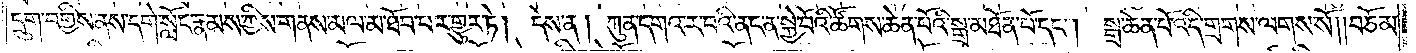དྲུག་བགྱིས་ནས་དགེ་སློང་རྣམས་ཀྱིས་གནས་མལ་མ་ཐོབ་པར་གྱུར་ཏེ། དེས་ན། ཀུན་དགའ་ར་བའི་ནང་ན་སྐྱེ་བོའི་ཚོགས་ཆེན་པོའི་སྒྲ་མཐོན་པོ་དང༌། སྒྲ་ཆེན་པོ་འདི་གྲགས་ལགས་སོ། །བཅོམ་
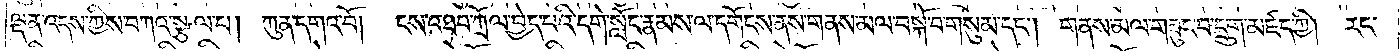ལྡན་འདས་ཀྱིས་བཀའ་སྩལ་པ། ཀུན་དགའ་བོ། །ངས་འཐབ་ཀྲོལ་བྱེད་པའི་དགེ་སློང་རྣམས་ལ་དགོངས་ནས་གནས་མལ་བསྐོ་བ་གསུམ་དང༌། གནས་མལ་གཟུང་བ་དྲུག་མཛད་ཀྱི། རང་
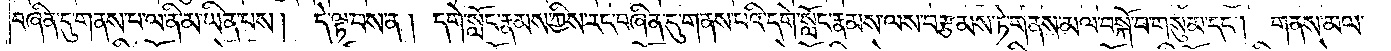བཞིན་དུ་གནས་པ་ལ་ནི་མ་ཡིན་པས། དེ་ལྟ་བས་ན། དགེ་སློང་རྣམས་ཀྱིས་རང་བཞིན་དུ་གནས་པའི་དགེ་སློང་རྣམས་ལས་བརྩམས་ཏེ་གནས་མལ་བསྐོ་བ་གསུམ་དང༌། གནས་མལ་
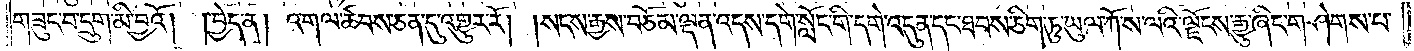གཟུང་བ་དྲུག་མི་བྱའོ། །བྱེད་ན། འགལ་ཚབས་ཅན་དུ་འགྱུར་རོ། །སངས་རྒྱས་བཅོམ་ལྡན་འདས་དགེ་སློང་གི་དགེ་འདུན་དང་ཐབས་ཅིག་ཏུ་ཡུལ་ཀོ་ས་ལའི་ལྗོངས་རྒྱུ་ཞིང་གཤེགས་པ་
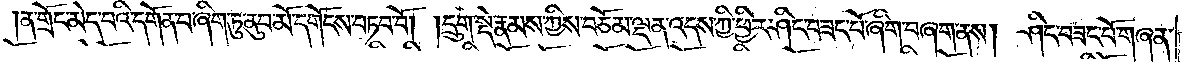ན་གྲོང་མེད་པའི་དགོན་པ་ཞིག་ཏུ་ནུབ་མོ་དགོངས་བཏབ་བོ། །དྲུག་སྡེ་རྣམས་ཀྱིས་བཅོམ་ལྡན་འདས་ཀྱི་ཕྱིར་ཤིང་བཟང་པོ་ཞིག་བཞག་ནས། ཤིང་བཟང་པོ་གཞན་
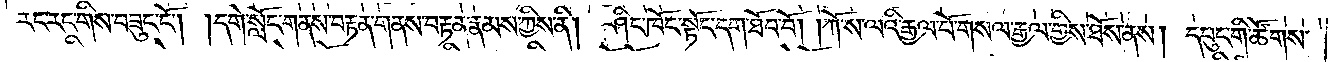རང་རང་གིས་བཟུང་ངོ༌། །དགེ་སློང་གནས་བརྟན་གནས་བརྟན་རྣམས་ཀྱིས་ནི། ཤིང་ཁོང་སྟོང་དག་ཐོབ་བོ། །ཀོ་ས་ལའི་རྒྱལ་པོ་གསལ་རྒྱལ་གྱིས་ཐོས་ནས། དཔུང་གི་ཚོགས་
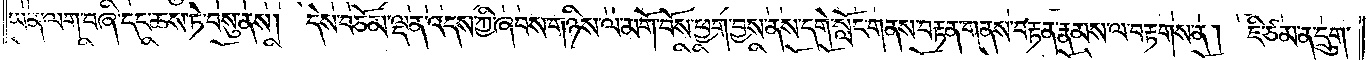ཡན་ལག་བཞི་དང་ཆས་ཏེ་བསུ་ནས། དེས་བཅོམ་ལྡན་འདས་ཀྱི་ཞབས་གཉིས་ལ་མགོ་བོས་ཕྱག་བྱས་ནས་དགེ་སློང་གནས་བརྟན་གནས་བརྟན་རྣམས་ལ་བརྟགས་ན། ཇི་ཙམ་ན་དྲུག་
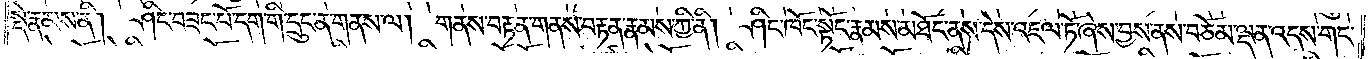སྡེ་རྣམས་ནི། ཤིང་བཟང་པོ་དག་གི་དྲུང་ན་གནས་ལ། གནས་བརྟན་གནས་བརྟན་རྣམས་ཀྱི་ནི། ཤིང་ཁོང་སྟོང་རྣམས་མཐོང་ནས་དེས་འཇལ་ཏོ་ཞེས་བྱས་ནས་བཅོམ་ལྡན་འདས་གང་
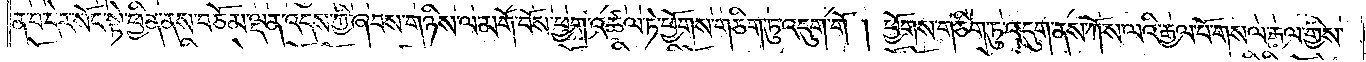ན་བ་དེར་སོང་སྟེ་ཕྱིན་ནས་བཅོམ་ལྡན་འདས་ཀྱི་ཞབས་གཉིས་ལ་མགོ་བོས་ཕྱག་འཚལ་ཏེ་ཕྱོགས་གཅིག་ཏུ་འདུག་གོ །ཕྱོགས་གཅིག་ཏུ་འདུག་ནས་ཀོ་ས་ལའི་རྒྱལ་པོ་གསལ་རྒྱལ་གྱིས་
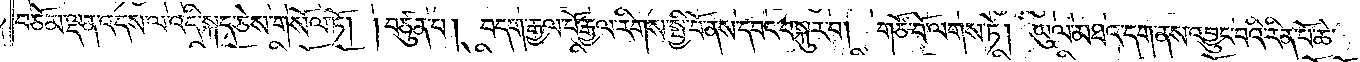བཅོམ་ལྡན་འདས་ལ་འདི་སྐད་ཅེས་གསོལ་ཏོ། །བཙུན་པ། བདག་རྒྱལ་པོ་རྒྱལ་རིགས་སྤྱི་བོ་ནས་དབང་བསྐུར་བ། གཙོ་བོ་ལགས་ཏེ། ཡུལ་མཐའ་དག་ནས་འབྱུང་བའི་རིན་པོ་ཆེ་
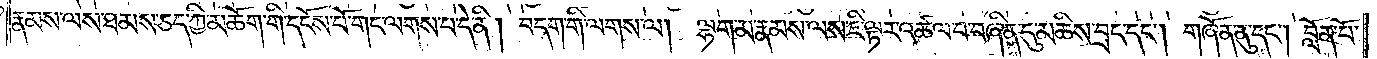རྣམས་ལས་ཐམས་ཅད་ཀྱི་མཆོག་གི་དངོས་པོ་གང་ལགས་པ་དེ་ནི། བདག་གི་ལགས་ལ། ལྷག་མ་རྣམས་ལས་ཇི་ལྟར་འཚལ་བ་བཞིན་དུ་མཆིས་བྲང་དང༌། གཞོན་ནུ་དང༌། བློན་པོ་
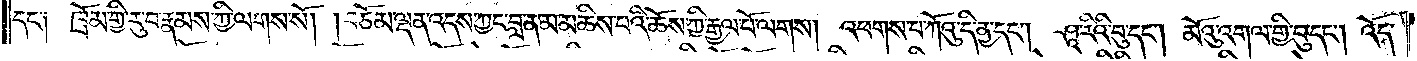དང་༑ ཁྲོམ་གྱི་རུ་བ་རྣམས་ཀྱི་ལགས་སོ། །བཅོམ་ལྡན་འདས་ཀྱང་བླ་ན་མ་མཆིས་པའི་ཆོས་ཀྱི་རྒྱལ་པོ་ལགས། འཕགས་པ་ཀོའུ་དི་ནྱ་དང༌། ཤཱ་རིའི་བུ་དང༌། མོའུ་འགལ་གྱི་བུ་དང༌། འོད་
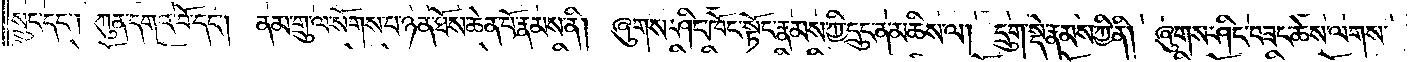སྲུང་དང༌། ཀུན་དགའ་བོ་དང༌། ནམ་གྲུ་ལ་སོགས་པ་ཉན་ཐོས་ཆེན་པོ་རྣམས་ནི། ཞུགས་ཤིང་ཁོང་སྟོང་རྣམས་ཀྱི་དྲུང་ན་མཆིས་ལ། དྲུག་སྡེ་རྣམས་ཀྱི་ནི། ཞུགས་ཤིང་བཟང་ཆེས་ལགས་
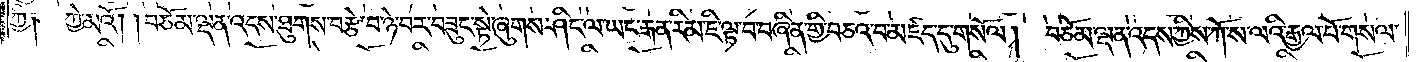ཀྱི༑ ཀྱེ་མའོ། །བཅོམ་ལྡན་འདས་ཐུགས་བརྩེ་བ་ཉེ་བར་བཟུང་སྟེ་ཞུགས་ཤིང་ལ་ཡང་རྒན་རིམ་ཇི་ལྟ་བ་བཞིན་གྱི་བཅའ་བ་མཛད་དུ་གསོལ། བཅོམ་ལྡན་འདས་ཀྱིས་ཀོ་ས་ལའི་རྒྱལ་པོ་གསལ་
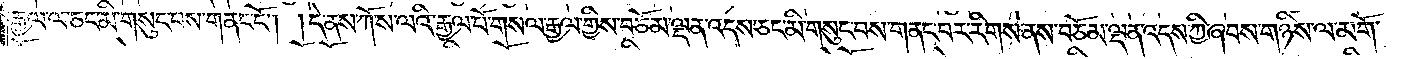རྒྱལ་ལ་ཅང་མི་གསུང་བས་གནང་ངོ༌། །དེ་ནས་ཀོ་ས་ལའི་རྒྱལ་པོ་གསལ་རྒྱལ་གྱིས་བཅོམ་ལྡན་འདས་ཅང་མི་གསུང་བས་གནང་བར་རིགས་ནས་བཅོམ་ལྡན་འདས་ཀྱི་ཞབས་གཉིས་ལ་མགོ་
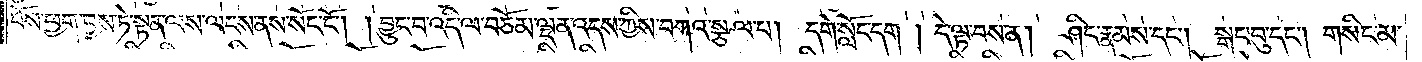བོས་ཕྱག་བྱས་ཏེ་སྟན་ལས་ལངས་ནས་སོང་ངོ༌། །བྱུང་བ་འདི་ལ་བཅོམ་ལྡན་འདས་ཀྱིས་བཀའ་སྩལ་པ། དགེ་སློང་དག ། དེ་ལྟ་བས་ན། ཤིང་རྣམས་དང༌། སྒང་བུ་དང༌། གསིང་མ་
